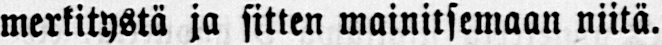merkitystä ja sitten mainitsemaan niitä.
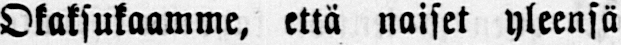Okaksukaamme, että naiset yleensä
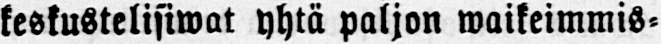keskustelisiwat yhtä paljon waikeimmis-
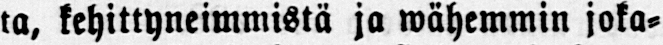ta, kehittyneimmistä ja wähemmin joka-
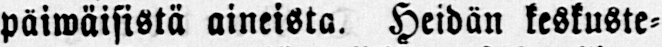päiwäisistä aineista. Heidän keskuste-
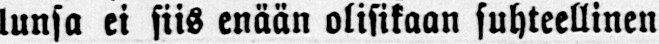lunsa ei siis enään olisikaan suhteellinen
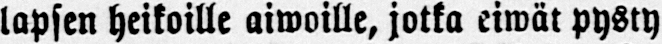lapsen heikoille aiwoille, jotka eiwät pysty
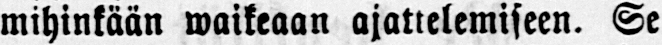mihinkään waikeaan ajattelemiseen. Se
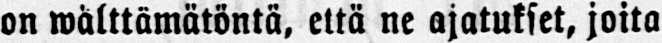on wälttämätöntä, että ne ajatukset, joita
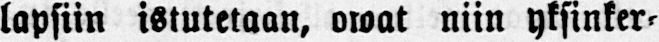lapsiin istutetaan, owat niin yksinker-
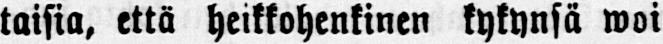taisia, että heikkohenkinen kykynsä woi
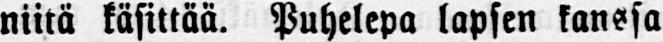niitä käsittää. Puhelepa lapsen kanssa
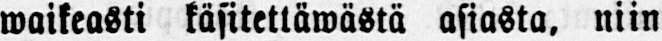waikeasti käsitettäwästä asiasta, niin
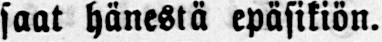saat hänestä epäsikiön.
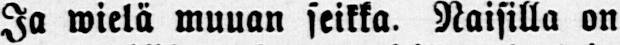Ja wielä muuan seikka. Naisilla on
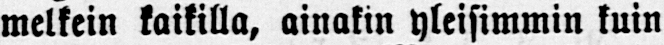melkein kaikilla, ainakin yleisimmin kuin
